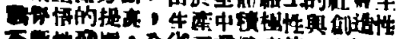義覺悟的提高，生產中積極性與創造性
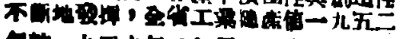不斷地發揮，全省工業總產值一九五二
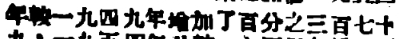年較一九四九年增加了百分之三百七十
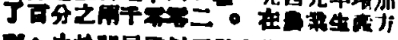了百分之兩千零零二 。在農業生產方
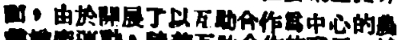面，由於開展了以互助合作爲中心的農
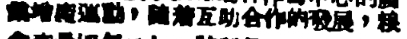業增產運動，隨着互助合作得發展，粮
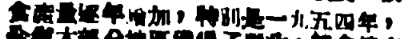食產量逐年增加，特別是一九五四年，
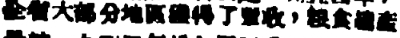全省大部分地區獲得了豐收，粮食總產
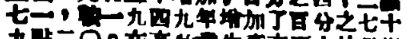七一，較一九四九年增加了百分之七十
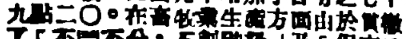九點二〇。在畜牧業生產方面由於貫徹
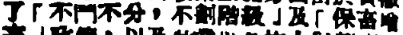了「不鬥不分，不劃階級」及「保畜增
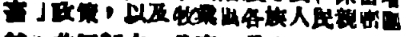畜」政策，以及牧業區各族人民親密團
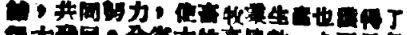結，共同努力，使畜牧業生產也獲得了
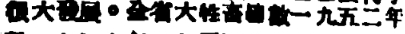很大發展。全省大牲畜總數一九五二年
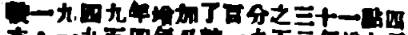較一九四九年增加了百分之三十一點四
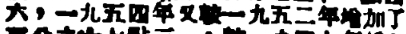六，一九五四年又較一九五二年增加了
